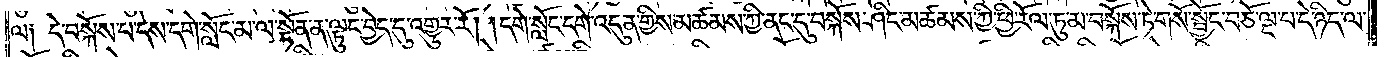ལ༑ དེ་བསྐོས་པ་དེས་དགེ་སློང་མ་ལ་སྟོན་ན་ལྟུང་བྱེད་དུ་འགྱུར་རོ། །དགེ་སློང་དགེ་འདུན་གྱིས་མཚམས་ཀྱི་ནང་དུ་བསྐོས་ཤིང་མཚམས་ཀྱི་ཕྱི་རོལ་ཏུ་མ་བསྐོས་ཏེ་གསོ་སྦྱོང་བཅོ་ལྔ་པ་དེ་ཉིད་ལ་
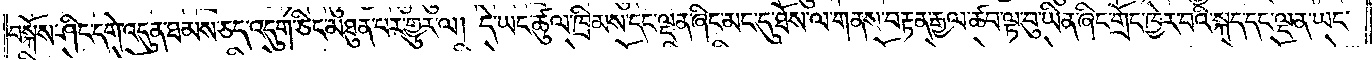བསྐོས་ཤིང་དགེ་འདུན་ཐམས་ཅད་འདུག་ཅིང་མཐུན་པར་གྱུར་ལ། དེ་ཡང་ཚུལ་ཁྲིམས་དང་ལྡན་ཞིང་མང་དུ་ཐོས་ལ་གནས་བརྟན་རྒྱལ་ཚབ་ལྟ་བུ་ཡིན་ཞིང་གྲོང་ཁྱེར་བའི་སྐད་དང་ལྡན་ཡང་
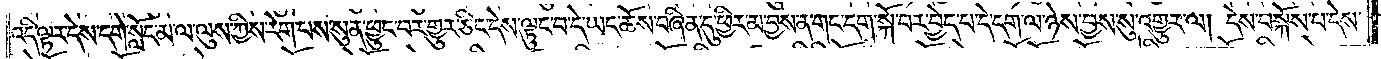འདི་ལྟར་དེས་དགེ་སློང་མ་ལ་ལུས་ཀྱིས་རེག་པས་སུན་ཕྱུང་བར་གྱུར་ཅིང་དེས་ལྟུང་བ་དེ་ཡང་ཆོས་བཞིན་དུ་ཕྱིར་མ་བྱས་ན་གང་དག་སྐོ་བར་བྱེད་པ་དེ་དག་ལ་ཉེས་བྱས་སུ་འགྱུར་ལ། དེས་བསྐོས་པ་དེས་
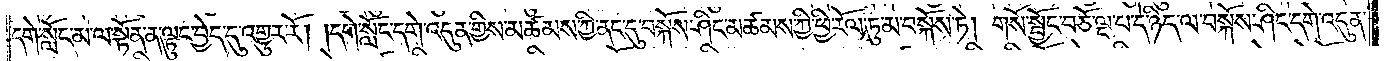དགེ་སློང་མ་ལ་སྟོན་ན་ལྟུང་བྱེད་དུ་འགྱུར་རོ། །དགེ་སློང་དགེ་འདུན་གྱིས་མཚམས་ཀྱི་ནང་དུ་བསྐོས་ཤིང་མཚམས་ཀྱི་ཕྱི་རོལ་ཏུ་མ་བསྐོས་ཏེ། གསོ་སྦྱོང་བཅོ་ལྔ་པ་དེ་ཉིད་ལ་བསྐོས་ཤིང་དགེ་འདུན་
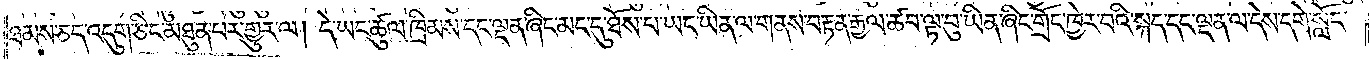ཐམས་ཅད་འདུག་ཅིང་མཐུན་པར་གྱུར་ལ། དེ་ཡང་ཚུལ་ཁྲིམས་དང་ལྡན་ཞིང་མང་དུ་ཐོས་པ་ཡང་ཡིན་ལ་གནས་བརྟན་རྒྱལ་ཚབ་ལྟ་བུ་ཡིན་ཞིང་གྲོང་ཁྱེར་བའི་སྐད་དང་ལྡན་ལ་དེས་དགེ་སློང་
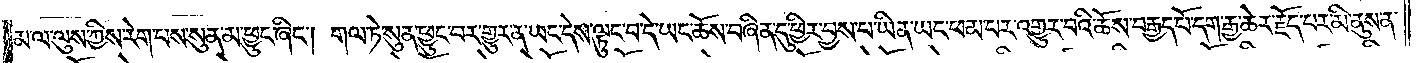མ་ལ་ལུས་ཀྱིས་རེག་པས་སུན་མ་ཕྱུང་ཞིང༌། གལ་ཏེ་སུན་ཕྱུང་བར་གྱུར་ན་ཡང་དེས་ལྟུང་བ་དེ་ཡང་ཆོས་བཞིན་དུ་ཕྱིར་བྱས་པ་ཡིན་ཡང་ཕམ་པར་འགྱུར་བའི་ཆོས་བརྒྱད་པོ་དག་རྒྱ་ཆེར་བརྗོད་པར་མི་ནུས་ན་
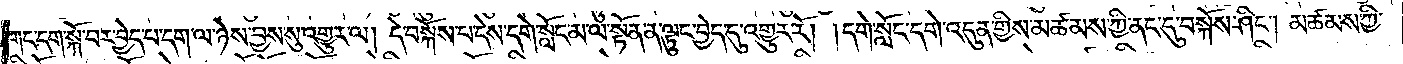གང་དག་སྐོ་བར་བྱེད་པ་དག་ལ་ཉེས་བྱས་སུ་འགྱུར་ལ། དེ་བསྐོས་པ་དེས་དགེ་སློང་མ་ལ་སྟོན་ན་ལྟུང་བྱེད་དུ་འགྱུར་རོ། །དགེ་སློང་དགེ་འདུན་གྱིས་མཚམས་ཀྱི་ནང་དུ་བསྐོས་ཤིང༌། མཚམས་ཀྱི་
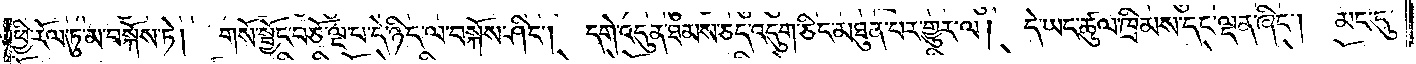ཕྱི་རོལ་ཏུ་མ་བསྐོས་ཏེ། གསོ་སྦྱོང་བཅོ་ལྔ་པ་དེ་ཉིད་ལ་བསྐོས་ཤིང༌། དགེ་འདུན་ཐམས་ཅད་འདུག་ཅིང་མཐུན་པར་གྱུར་ལ། དེ་ཡང་ཚུལ་ཁྲིམས་དང་ལྡན་ཞིང༌། མང་དུ་
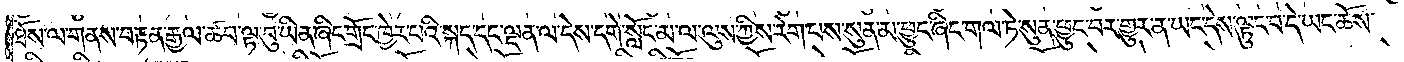ཐོས་ལ་གནས་བརྟན་རྒྱལ་ཚབ་ལྟ་བུ་ཡིན་ཞིང་གྲོང་ཁྱེར་བའི་སྐད་དང་ལྡན་ལ་དེས་དགེ་སློང་མ་ལ་ལུས་ཀྱིས་རེག་པས་སུན་མ་ཕྱུང་ཞིང་གལ་ཏེ་སུན་ཕྱུང་བར་གྱུར་ན་ཡང་དེས་ལྟུང་བ་དེ་ཡང་ཆོས་
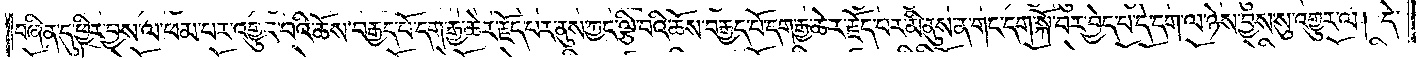བཞིན་དུ་ཕྱིར་བྱས་ལ་ཕམ་པར་འགྱུར་བའི་ཆོས་བརྒྱད་པོ་དག་རྒྱ་ཆེར་རྗོད་པར་ནུས་ཀྱང་ལྕི་བའི་ཆོས་བརྒྱད་པོ་དག་རྒྱ་ཆེར་རྗོད་པར་མི་ནུས་ན་གང་དག་སྐོ་བར་བྱེད་པ་དེ་དག་ལ་ཉེས་བྱས་སུ་འགྱུར་ལ། དེ་
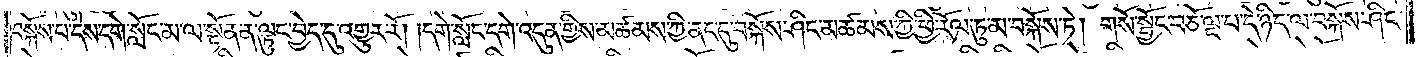བསྐོས་པ་དེས་དགེ་སློང་མ་ལ་སྟོན་ན་ལྟུང་བྱེད་དུ་འགྱུར་རོ། །དགེ་སློང་དགེ་འདུན་གྱིས་མཚམས་ཀྱི་ནང་དུ་བསྐོས་ཤིང་མཚམས་ཀྱི་ཕྱི་རོལ་ཏུ་མ་བསྐོས་ཏེ། གསོ་སྦྱོང་བཅོ་ལྔ་པ་དེ་ཉིད་ལ་བསྐོས་ཤིང་
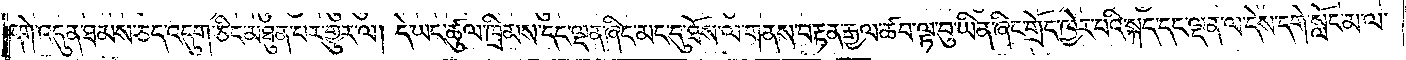དགེ་འདུན་ཐམས་ཅད་འདུག་ཅིང་མཐུན་པར་གྱུར་ལ། དེ་ཡང་ཚུལ་ཁྲིམས་དང་ལྡན་ཞིང་མང་དུ་ཐོས་ལ་གནས་བརྟན་རྒྱལ་ཚབ་ལྟ་བུ་ཡིན་ཞིང་གྲོང་ཁྱེར་པའི་སྐད་དང་ལྡན་ལ་དེས་དགེ་སློང་མ་ལ་
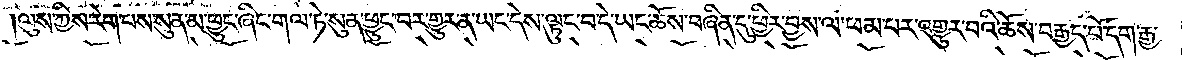ལུས་ཀྱིས་རེག་པས་སུན་མ་ཕྱུང་ཞིང་གལ་ཏེ་སུན་ཕྱུང་བར་གྱུར་ན་ཡང་དེས་ལྟུང་བ་དེ་ཡང་ཆོས་བཞིན་དུ་ཕྱིར་བྱས་ལ་ཕམ་པར་འགྱུར་བའི་ཆོས་བརྒྱད་པོ་དག་རྒྱ་
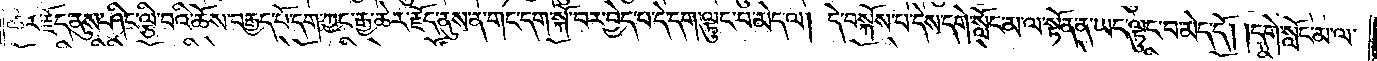ཆེར་རྗོད་ནུས་ཤིང་ལྕི་བའི་ཆོས་བརྒྱད་པོ་དག་ཀྱང་རྒྱ་ཆེར་རྗོད་ནུས་ན་གང་དག་སྐོ་བར་བྱེད་པ་དེ་དག་ལྟུང་བ་མེད་ལ། དེ་བསྐོས་པ་དེས་དགེ་སློང་མ་ལ་སྟོན་ན་ཡང་ལྟུང་བ་མེད་དོ། །དགེ་སློང་མ་ལ་
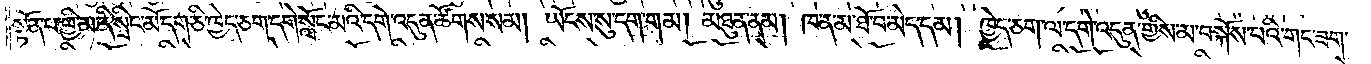སྟོན་པ་ཕྱི་མ་ནི་སྲིང་མོ་དག་ཅི་ཁྱེད་ཅག་དགེ་སློང་མའི་དགེ་འདུན་ཚོགས་སམ། ཡོངས་སུ་དག་གམ། མཐུན་ནམ། ཁན་མ་ཐོ་བ་མེད་དམ། ཁྱེད་ཅག་ལ་དགེ་འདུན་གྱིས་མ་བསྐོས་པའི་གང་ཟག་
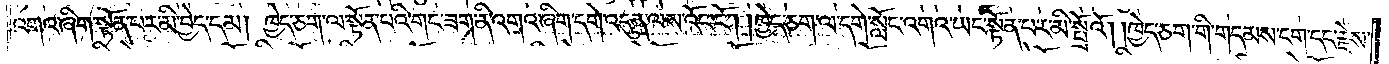འགའ་ཞིག་སྟོན་པར་མི་བྱེད་དམ། ཁྱེད་ཅག་ལ་སྟོན་པའི་གང་ཟག་ནི་འགའ་ཞིག་དགེ་འདུན་ལས་འོང་ངོ༌། །ཁྱེད་ཅག་ལ་དགེ་སློང་འགའ་ཡང་སྟོན་པར་མི་སྤྲོའོ། །ཁྱེད་ཅག་གི་གདམས་ངག་དང་རྗེས་
